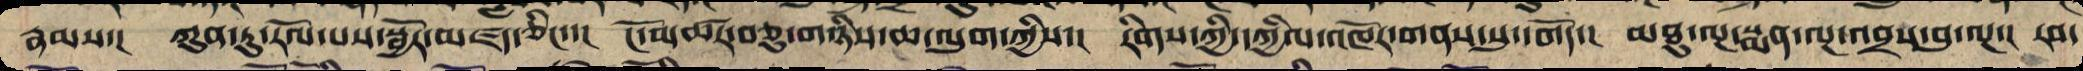རྣམས་། ཀུན་ཏུ་རོལ་པས་སྦྱོར་མཛད་ཅིང་་། ངོ་མཚར་བཅུ་གཉིས་ཆ་ལུག་ཀྱིས་། རིགས་ཀྱི་དཀྱིལ་འཁོར་གནས་སུ་བཀོད་། མཐུ་ལྔ་སྨན་ལྔ་འབྲས་བུ་ལྔ་། རབ་
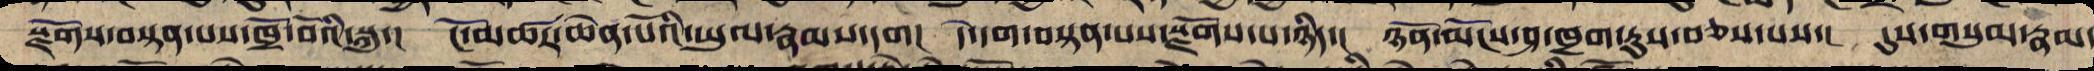སྫོགས་བསྟན་པས་ཁྲོ་བོའི་སྐུ་། ངོ་མཚར་ཆེན་པོའི་ཡུལ་རྣམས་དག། དེ་དག་བསྟན་པས་སྫོགས་པ་ཉིད་། ཉོན་མོངས་ཤ་ཁྲག་རུས་བཅས་པས་། དུག་གསུམ་རྣམ་
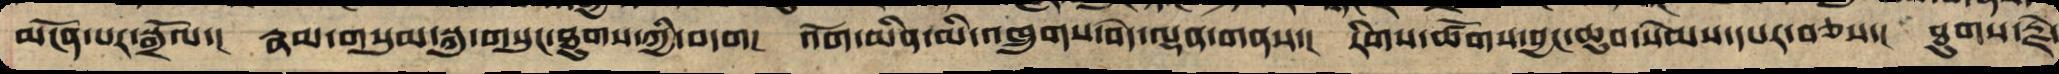མངོན་པར་སྒྲོལ་། རྣམ་གསུམ་སྐུ་གསུང་ཐུགས་ཀྱི་བདག། འོག་མིན་མི་འཁྲུགས་བདེ་ལྡན་གནས་། རིགས་ཚོགས་བྱང་ཆུབ་སེམས་དཔར་བཅས་། ཐུགས་རྗེ
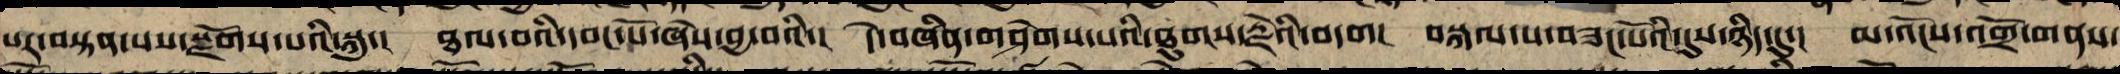པར་བསྟན་པས་སྫོགས་པའི་སྐུ་། ཐལ་བའི་དབང་པོ་ཞེས་བྱ་བའི་། དེ་བཞིན་གཤེགས་པའི་ཐུགས་རྗེའི་བདག། བསྐལ་པ་བཟང་པོའི་དུས་ཉིད་དུ་། མ་འོངས་འགྲོ་གནས་
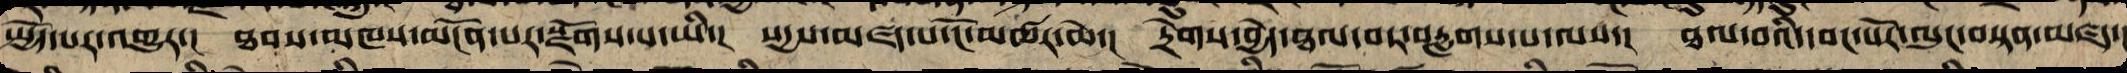སྤྱོད་པར་འགྱུར་། ཐབས་མཁས་མངོན་པར་སྫོགས་པ་ཡི་། སདྱས་མཛད་པ་ངོ་མཚར་ཆེ་། དྲེགས་བྱེད་ཐལ་བར་བརླག་པ་ལས་། ཐལ་བའི་དབང་པོར་ལུང་བསྟན་མཛད་།
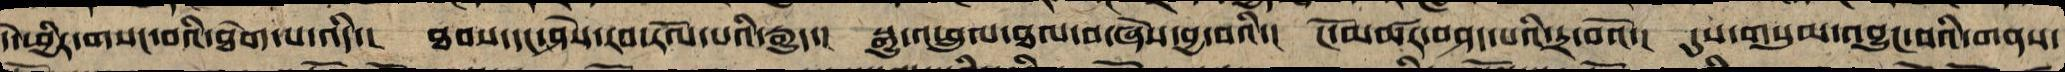དེ་ཕྱིར་གསང་བའི་ཐེག་པ་འདི་། ཐབས་དང་ཤེས་རབ་རོལ་པའི་རྒྱུད་། སྒྱུ་འཕྲུལ་ཐལ་བ་ཞེས་བྱ་བའི་། ངོ་མཚར་བཤད་པའི་དྲ་བའོ་། དུས་གསུམ་འབྱུང་བའི་གནས་
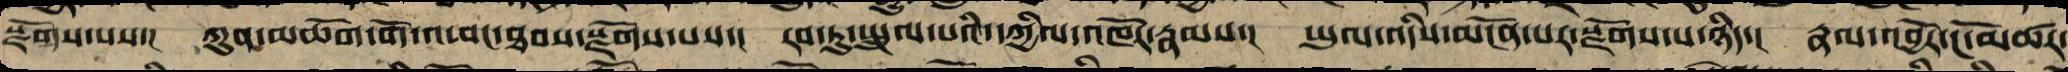སྫོགས་པས་། ཀུན་མཆོག་གོ་འཕང་ཐབས་སྫོགས་པས་། རབ་ཏུ་སྤྲུལ་པའི་དཀྱིལ་འཁོར་རྣམས་། ཡུལ་འདིར་མངོན་པར་སྫོགས་པ་ཉིད་། རྣལ་འབྱོར་ངོ་མཚར་
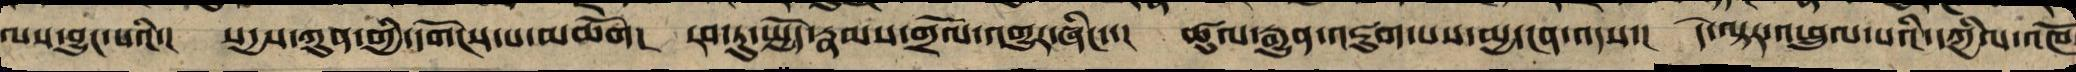ལས་བྱུང་བའི་། སདྱས་ཀུན་གྱི་དགོངས་པ་མཆོག། རབ་ཏུ་སྤྱོད་རྣམས་གྲོལ་འགྱུར་ཞིང་་། ཚུལ་རྒྱུན་འཇུག་པས་མྱ་ངན་འདས་། དེ་ལྟར་འཕྲུལ་པའི་དཀྱིལ་འཁོ
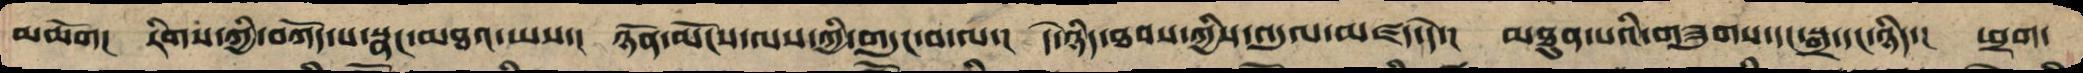མཆོག། རིགས་ཀྱི་བཀོད་པ་སྣང་མཐའ་ཡས་། ཉོན་མོངས་ལས་ཀྱིས་གདུངས་པ་ལ་། དེ་ཉིད་ཐབས་ཀྱིས་འདུལ་མཛད་དེ་། མཐུན་པའི་གཟུགས་དང་སྒྲ་དང་ཉིད་། ཕྱག་
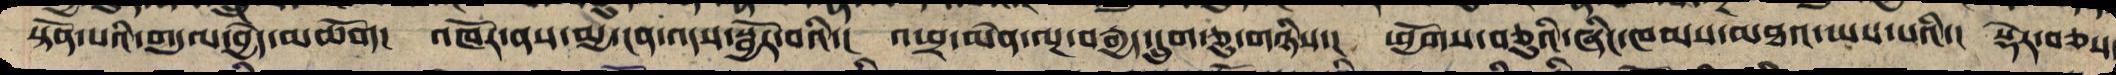སྟོན་པའི་འདུལ་བྱེད་མཆོག། འཁོར་ནས་མྱ་ངན་འདས་སྦྱོར་བའི་། ཕྲ་མེན་ལྔ་བརྒྱ་དྲུག་ཅུ་གཉིས་། ཕྱོགས་བཅུའི་ཞིང་ཁམས་མཐའ་ཡས་པའི་། སྡེར་བཅས་
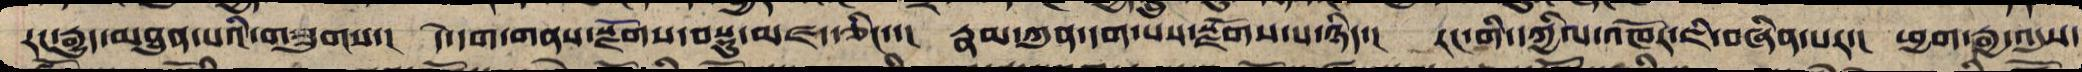རང་རྒྱུད་མཐུན་པའི་གཟུགས་། དེ་དག་གནས་སྫོགས་བསྡུ་མཛད་ཅིང་་། རྣམ་ཀུན་དག་པས་སྫོགས་པ་ཉིད་། རང་གི་དཀྱིལ་འཁོར་ཇི་བཞིན་པར་། ཕྱག་རྒྱ་འདུས་
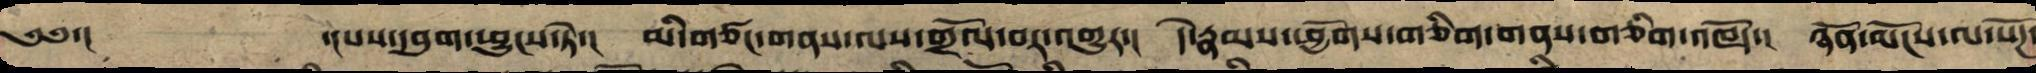༄༅་། ་།པས་དབུགས་ཕྱུང་ཏེ་། མི་གཙང་གནས་ལས་གྲོལ་བར་གྱུར་། དེ་རྣམས་ཕྱོགས་གཅིག་གནས་གཅིག་འཁོད་། ཉོན་མོངས་ལ་སོཌ་
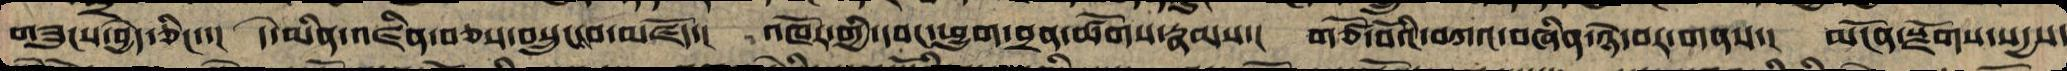བཟུང་བྱེད་ཅིང་་། དེ་མིན་འཛིན་བཅས་བསྲུང་བ་མཛོད་། འཁོར་གྱི་དབང་ཕྱུག་བྲན་ཚོགས་རྣམས་། གཙོ་བོའི་བཀའ་བཞིན་ཉེ་བར་གནས་། མངོན་སྫོགས་སདྱས་
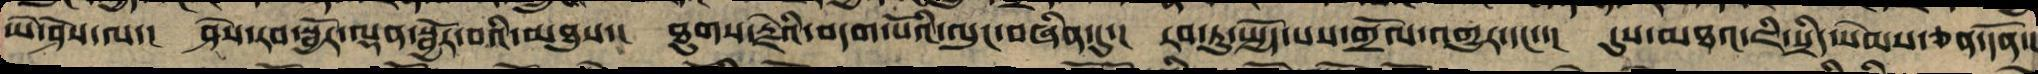ཡེ་ཤེས་ལ་། ཤེས་རབ་སྦྱོར་ལྡན་སྦྱོར་བའི་མཐུས་། ཐུགས་རྗེའི་བདག་པོའི་ལུང་བཞིན་དུ་། རབ་ཏུ་སྤྱོད་པས་གྲོལ་འགྱུར་དང་་། དུས་མཐའ་ཇི་སྲིད་སེམས་ཅན་དོན་།
